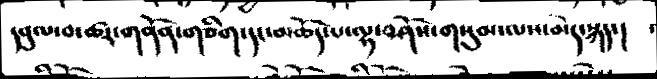དབུལ་བ་ཚར་གནོན་གཅིག་དང་མཆོད་པ་ལྷ་བཤོས་གསུམ་ལས་མེད་སྐད་།
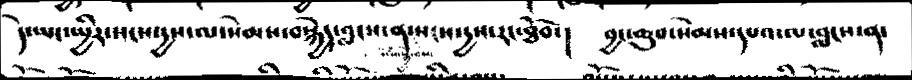དེ་ཡང་ཡྱིར་སངས་དྱས་ལ་སེམས་བསྐྱེད་བླངས་ན་སངས་དྱས་རང་ཐོབ་།     བྱང་ཆུབ་སེམས་དཔའ་ལ་བླངས་ན་
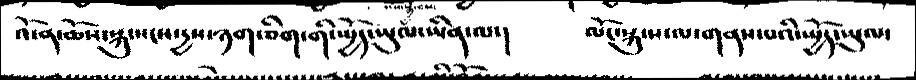འོ་ན་ཆོས་སྐུ་སངས་དྱས་ཉག་ཅིག་གི་སྤྱོད་ཡུལ་ཡིན་ལ་།     ལོང་སྐུ་ས་ལ་གནས་པའི་སྤྱོད་ཡུལ་
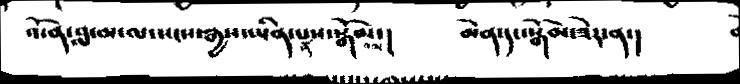འོ་ན་བླ་མ་སངས་རྒྱས་ཡིན་པས་ན་སྒོམ་།  ཆེན་དང་སྒོམ་ཟེར་ན་།
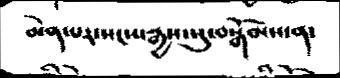ཆེན་པར་སངས་རྒྱས་སུ་བསྒོམས་ན་
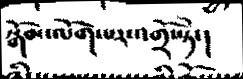སྒོམ་ལོག་པར་འགྲོ་སྟེ་།
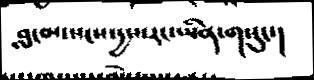བླ་མ་སངས་དྱས་རང་ཡིན་གསུང་།
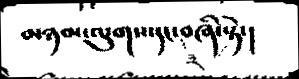མཉམ་ལུགས་དང་༣་བཞི་སྟེ་།
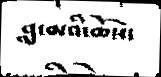བླ་མའི་ཆོས་
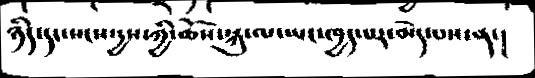ཉིད་དང་སངས་དྱས་ཀྱི་ཆོས་སྐུ་ལ་ཡང་ཁྱད་པར་མེད་པས་ན་།
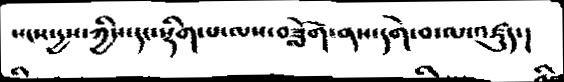སངས་དྱས་ཀྱིས་དང་སྡིག་པ་ལས་བཟློག་ནས་དགེ་བ་ལ་འཛུད་།
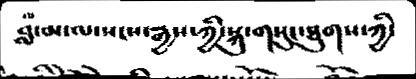བླ་མ་ལས་སངས་རྒྱས་ཀྱི་སྐུ་གསུང་ཐུགས་ཀྱི་
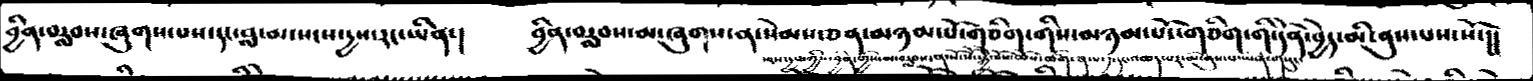བྱིན་བརླབས་ཞུགས་པས་དང་བླ་མ་སངས་དྱས་རང་ཡིན་།  བྱིན་བརླབས་མ་ཞུགས་ན་སེམས་ཅན་མཉམ་པོ་གཅིག་གི་དོན་བྱེད་མི་ནུས་པས་སོ་།།
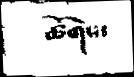ཚོགས་
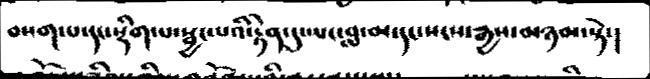བསག་པ་དང་སྡིག་པ་སྦྱང་པའི་རྟེན་དུ་ཡང་བླ་མ་དང་སངས་རྒྱས་མཉམ་སྟེ་།
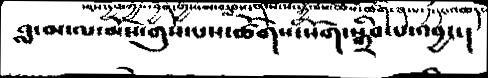བླ་མ་ལ་མོས་གུས་པས་ཚོགས་སོག་སྒྲིབ་པ་འབྱང་།
